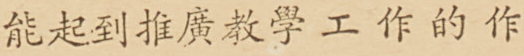能起到推廣教學工作的作
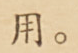用。
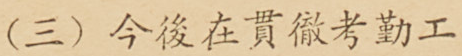（三）今後在貫徹考勤工
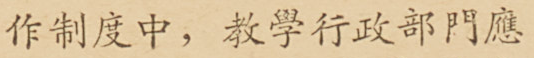作制度中，教學行政部門應
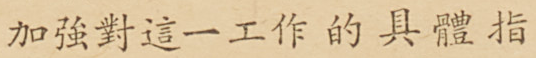加強對這一工作的具體指
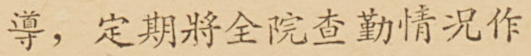導，定期將全院查勤情況作
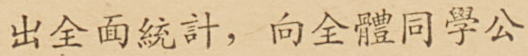出全面統計，向全體同學公
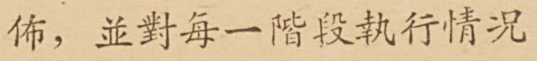佈，並對每一階段執行情況
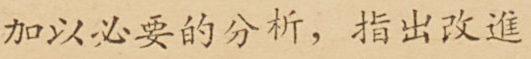加以必要的分析，指出改進
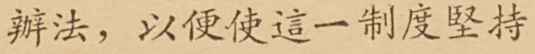辦法，以便使這一制度堅持
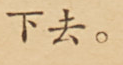下去。
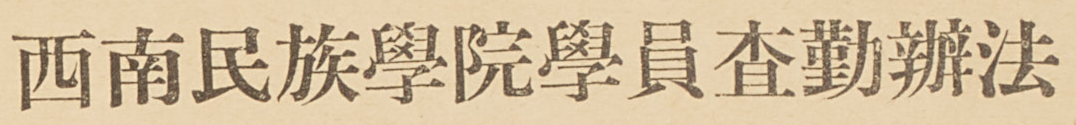西南民族學院學員查勤辦法
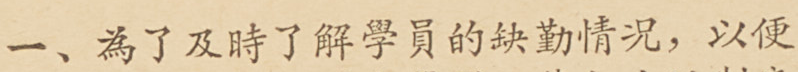一、爲了及時了解學員的缺勤情況，以便
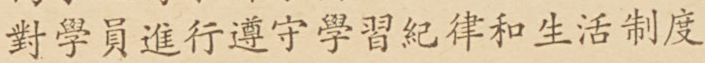對學員進行遵守學習紀律和生活制度
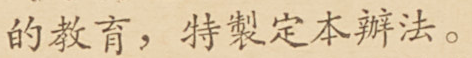的教育，特制定本辦法。
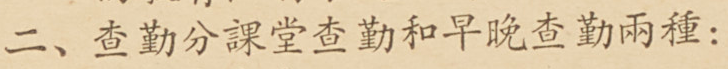二、查勤分課堂查勤和早晚查勤兩種：
